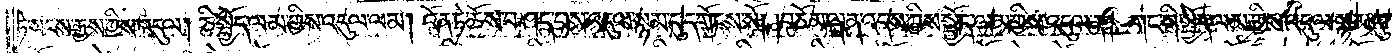ཏེ་སངས་རྒྱས་ཀྱིས་འདུལ། ཅི་སྤྱོད་ལམ་གྱིས་འདུལ་ལམ། འོན་ཏེ་ཆོས་བཤད་པས་འདུལ་སྙམ་དུ་དགོངས་སོ། །བཅོམ་ལྡན་འདས་ཀྱིས་སྤྱོད་ལམ་གྱིས་འདུལ་ན། གང་གི་སྤྱོད་ལམ་གྱིས་འདུལ་སྙམ་དུ་
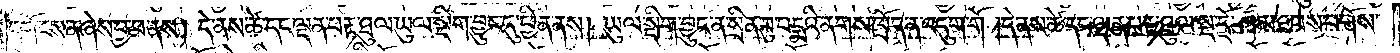དགོངས་ན་ཞེས་བྱ་བ་ནས། དེ་ནས་ཚེ་དང་ལྡན་པ་རྟ་ཐུལ་ཡུལ་སྡིག་བྱུང་དུ་ཕྱིན་ནས། ཡུལ་སྡིག་བྱུང་ན་སྲིན་བུ་པདྨའི་ནགས་ཁྲོད་ན་འདུག་གོ །དེ་ནས་ཚེ་དང་ལྡན་པ་རྟ་ཐུལ་སྔ་དྲོ་ཤམ་ཐབས་བགོས་
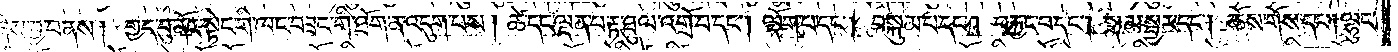ཞེས་བྱ་བ་ནས། གྱད་བུ་ནོར་སྟེང་གི་ཁང་བཟང་གི་ཐོག་ན་འདུག་པས། ཚེ་དང་ལྡན་པ་རྟ་ཐུལ་འགྲོ་བ་དང༌། ལྡོག་པ་དང༌། བསྐུམ་པ་དང༌། བརྐྱང་པ་དང༌། སྣམ་སྦྱར་དང༌། ཆོས་གོས་དང༌། ལྷུང་
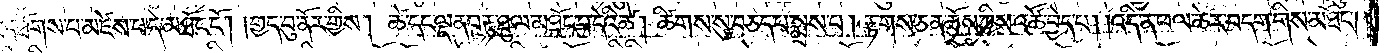བཟེད་ཐོགས་པ་མཛེས་པ་དེ་མཐོང་ངོ༌། །གྱད་བུ་ནོར་གྱིས། ཚེ་དང་ལྡན་པ་རྟ་ཐུལ་མཐོང་བ་དེའི་ཚེ། ཚིགས་སུ་བཅད་པ་སྨྲས་པ། རྟགས་ཅན་ཆོས་ཀྱིས་འཚོ་བྱེད་པ། །འདི་ན་ཕལ་ཆེར་བདག་གིས་མཐོང༌།
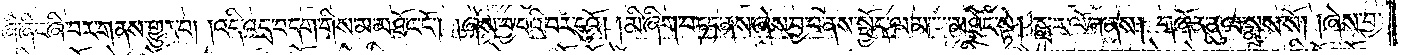ཞི་ཞིང་ཞི་བར་གནས་གྱུར་པ། །འདི་འདྲ་བདག་གིས་མ་མཐོང་ངོ༌། ཞེས་བྱ་བའི་བར་དུའོ། །མི་ཞིག་བཏང་ནས་ཞེས་བྱ་བ་ནས་སྤྱོད་ལམ་པ་མཐོང་སྟེ། སླར་ལོག་ནས། གཞོན་ནུ་ལ་སྨྲས་སོ། །ཞེས་བྱ་
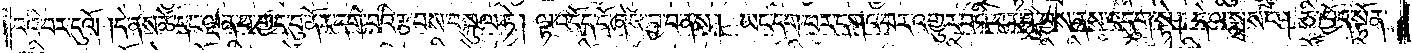བའི་བར་དུའོ། །དེ་ནས་ཚེ་དང་ལྡན་པ་གྱད་བུ་ནོར་དགེ་བའི་རྩ་བས་བསྐུལ་ཏེ། ལྟ་འདོད་དོ་ཞེས་བྱ་བ་ནས། ཡང་དག་པར་དགའ་བར་འགྱུར་བའི་བར་དུ་བྱས་ནས་འདུག་སྟེ། དེ་ལ་སྨྲས་པ། ཅི་ཁྱོད་སྟོན་
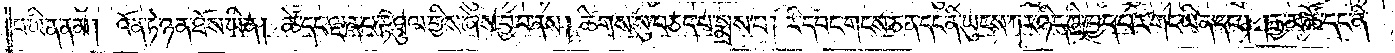པ་ཡིན་ནམ། འོན་ཏེ་ཉན་ཐོས་ཡིན། ཚེ་དང་ལྡན་པ་རྟ་ཐུལ་གྱིས་ཞེས་བྱ་བ་ནས། ཚིགས་སུ་བཅད་པ་སྨྲས་པ། རི་དབང་གངས་ཅན་དང་ནི་ཡུངས་ཀར་ཉིད་ཀྱི་ཁྱད་པར་གང་ཡིན་དང༌། །རྒྱ་མཚོ་དང་ནི་
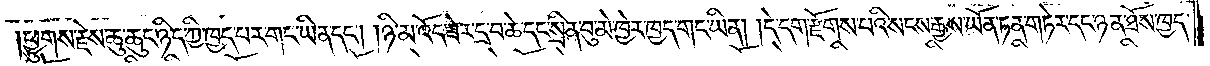ཕྱུགས་རྗེས་ཆུ་ཆུང་ཉིད་ཀྱི་ཁྱད་པར་གང་ཡིན་དང༌། །ཉི་མ་འོད་ཟེར་དྲ་བ་ཆེ་དང་སྲིན་བུ་མེ་ཁྱེར་ཁྱད་གང་ཡིན། །དེ་དག་རྫོགས་པའི་སངས་རྒྱས་ཡོན་ཏན་གཏེར་དང་ཉན་ཐོས་ཁྱད་
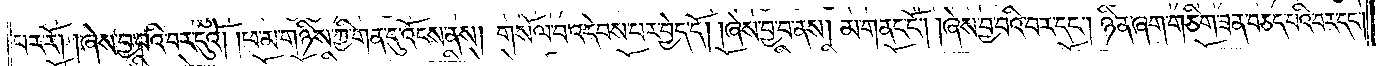པར་རོ། །ཞེས་བྱ་བའི་བར་དུའོ། །ཕ་མ་གཉིས་ཀྱི་གན་དུ་འོངས་ནས། གསོལ་བ་འདེབས་པར་བྱེད་དོ། །ཞེས་བྱ་བ་ནས། མ་གནང་ངོ༌། །ཞེས་བྱ་བའི་བར་དང༌། ཉིན་ཞག་གཅིག་ཟན་བཅད་པའི་བར་དང༌།
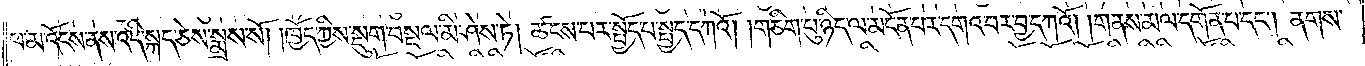ཕ་མ་འོངས་ནས་འདི་སྐད་ཅེས་སྨྲས་སོ། །ཁྱོད་ཀྱིས་སྡུག་བསྔལ་མི་ཤེས་ཏེ། ཚངས་པར་སྤྱོད་པ་སྤྱད་དཀའོ། །གཅིག་པུ་ཉིད་ལ་མངོན་པར་དགའ་བར་བྱ་དཀའོ། །གནས་མལ་དགོན་པ་དང༌། ནགས་
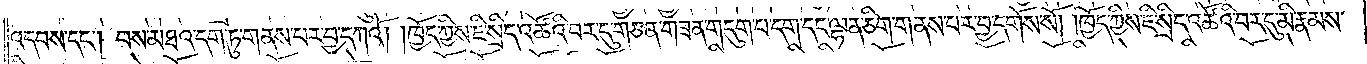འདབས་དང༌། བས་མཐའ་དག་ཏུ་གནས་པར་བྱ་དཀའོ། །ཁྱོད་ཀྱིས་ཇི་སྲིད་འཚོའི་བར་དུ་གཅན་གཟན་གདུག་པ་དག་དང་ལྷན་ཅིག་གནས་པར་བྱ་དགོས་སོ། །ཁྱོད་ཀྱིས་ཇི་སྲིད་འཚོའི་བར་དུ་མི་རྣམས་
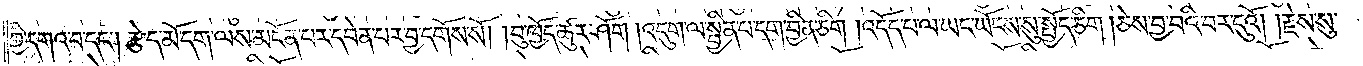ཀྱི་དགའ་བ་དང༌། རྩེད་མོ་དག་ལས་མངོན་པར་དབེན་པར་བྱ་དགོས་སོ། །བུ་ཁྱོད་ཚུར་ཤོག །འདུག་ལ་སྦྱིན་པ་དག་བྱིན་ཅིག །འདོད་པ་ལ་ཡང་ཡོངས་སུ་སྤྱོད་ཅིག །ཅེས་བྱ་བའི་བར་དུའོ། །རྗེས་སུ་
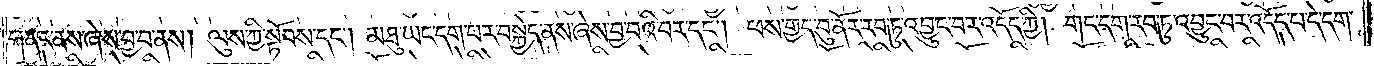གནང་ནས་ཞེས་བྱ་བ་ནས། ལུས་ཀྱི་སྟོབས་དང༌། མཐུ་ཡང་དག་པར་བསྐྱེད་ནས་ཞེས་བྱ་བའི་བར་དང༌། ཕས་གྱད་བུ་ནོར་རབ་ཏུ་འབྱུང་བར་འདོད་ཀྱི། གང་དག་རབ་ཏུ་འབྱུང་བར་འདོད་པ་དེ་དག་
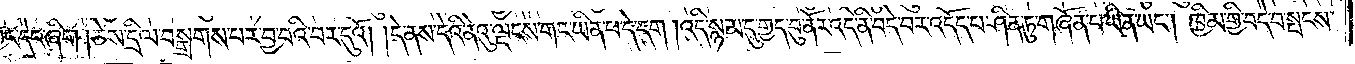ཀྱང་དེང་ཞིག །ཅེས་དྲིལ་བསྒྲགས་པར་བྱ་བའི་བར་དུའོ། །དེ་ནས་དེའི་ནེའུ་ལྡངས་གང་ཡིན་པ་དེ་དག །འདི་སྙམ་དུ་གྱད་བུ་ནོར་འདི་ནི་བདེ་བར་འདོད་པ་ཤིན་ཏུ་གཞོན་པ་ཡིན་ཡང༌། ཁྱིམ་གྱི་བདེ་བ་སྤངས་
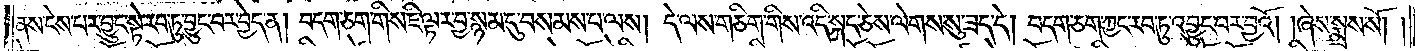ནས་ངེས་པར་བྱུང་སྟེ་རབ་ཏུ་བྱུང་བར་བྱེད་ན། བདག་ཅག་གིས་ཇི་ལྟར་བྱ་སྙམ་དུ་བསམས་པ་ལས། དེ་ལས་གཅིག་གིས་འདི་སྐད་ཅེས་ལེགས་སུ་ཟད་དེ། བདག་ཅག་ཀྱང་རབ་ཏུ་འབྱུང་བར་བྱའོ། །ཞེས་སྨྲས་སོ། །
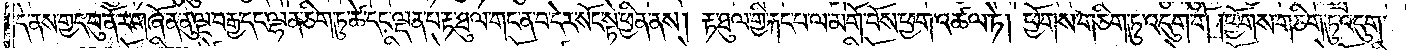དེ་ནས་གྱད་བུ་ནོར་གཞོན་ནུ་ལྔ་བརྒྱ་དང་ལྷན་ཅིག་ཏུ་ཚེ་དང་ལྡན་པ་རྟ་ཐུལ་གང་ན་བ་དེར་སོང་སྟེ་ཕྱིན་ནས། རྟ་ཐུལ་གྱི་རྐང་པ་ལ་མགོ་བོས་ཕྱག་འཚལ་ཏེ། ཕྱོགས་གཅིག་ཏུ་འདུག་གོ །ཕྱོགས་གཅིག་ཏུ་འདུག་
